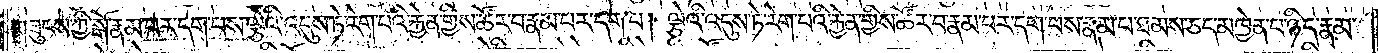གཟུངས་ཀྱི་སྒོ་རྣམ་པར་དག་པས་ལྕེའི་འདུས་ཏེ་རེག་པའི་རྐྱེན་གྱིས་ཚོར་བ་རྣམ་པར་དག་པ། ལྕེའི་འདུས་ཏེ་རེག་པའི་རྐྱེན་གྱིས་ཚོར་བ་རྣམ་པར་དག་པས་རྣམ་པ་ཐམས་ཅད་མཁྱེན་པ་ཉིད་རྣམ་
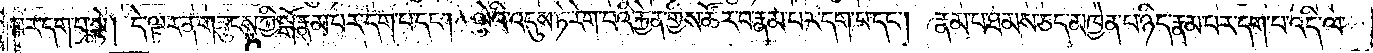པར་དག་པ་སྟེ། དེ་ལྟར་ན་གཟུངས་ཀྱི་སྒོ་རྣམ་པར་དག་པ་དང༌། ལྕེའི་འདུས་ཏེ་རེག་པའི་རྐྱེན་གྱིས་ཚོར་བ་རྣམ་པར་དག་པ་དང༌། རྣམ་པ་ཐམས་ཅད་མཁྱེན་པ་ཉིད་རྣམ་པར་དག་པ་འདི་ལ་
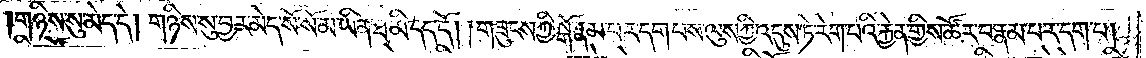གཉིས་སུ་མེད་དེ། གཉིས་སུ་བྱར་མེད་སོ་སོ་མ་ཡིན་ཐ་མི་དད་དོ། །གཟུངས་ཀྱི་སྒོ་རྣམ་པར་དག་པས་ལུས་ཀྱི་འདུས་ཏེ་རེག་པའི་རྐྱེན་གྱིས་ཚོར་བ་རྣམ་པར་དག་པ།
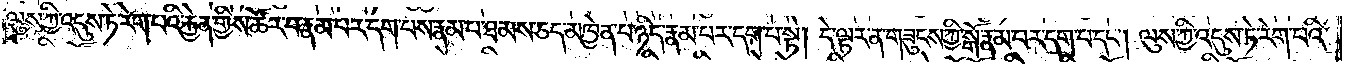ལུས་ཀྱི་འདུས་ཏེ་རེག་པའི་རྐྱེན་གྱིས་ཚོར་བ་རྣམ་པར་དག་པས་རྣམ་པ་ཐམས་ཅད་མཁྱེན་པ་ཉིད་རྣམ་པར་དག་པ་སྟེ། དེ་ལྟར་ན་གཟུངས་ཀྱི་སྒོ་རྣམ་པར་དག་པ་དང༌། ལུས་ཀྱི་འདུས་ཏེ་རེག་པའི་
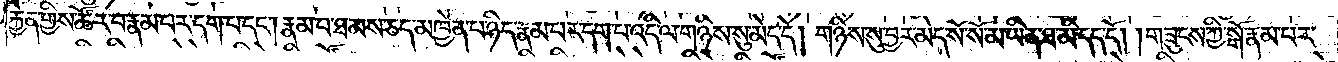རྐྱེན་གྱིས་ཚོར་བ་རྣམ་པར་དག་པ་དང༌། རྣམ་པ་ཐམས་ཅད་མཁྱེན་པ་ཉིད་རྣམ་པར་དག་པ་འདི་ལ་གཉིས་སུ་མེད་དེ། གཉིས་སུ་བྱར་མེད་སོ་སོ་མ་ཡིན་ཐ་མི་དད་དོ། །གཟུངས་ཀྱི་སྒོ་རྣམ་པར་
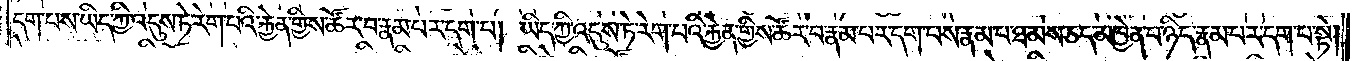དག་པས་ཡིད་ཀྱི་འདུས་ཏེ་རེག་པའི་རྐྱེན་གྱིས་ཚོར་བ་རྣམ་པར་དག་པ། ཡིད་ཀྱི་འདུས་ཏེ་རེག་པའི་རྐྱེན་གྱིས་ཚོར་བ་རྣམ་པར་དག་པས་རྣམ་པ་ཐམས་ཅད་མཁྱེན་པ་ཉིད་རྣམ་པར་དག་པ་སྟེ།
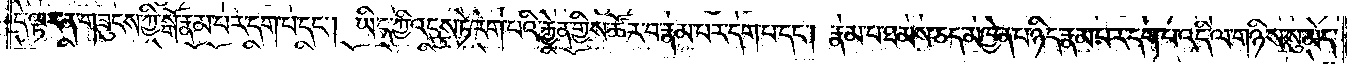དེ་ལྟར་ན་གཟུངས་ཀྱི་སྒོ་རྣམ་པར་དག་པ་དང༌། ཡིད་ཀྱི་འདུས་ཏེ་རེག་པའི་རྐྱེན་གྱིས་ཚོར་བ་རྣམ་པར་དག་པ་དང༌། རྣམ་པ་ཐམས་ཅད་མཁྱེན་པ་ཉིད་རྣམ་པར་དག་པ་འདི་ལ་གཉིས་སུ་མེད་
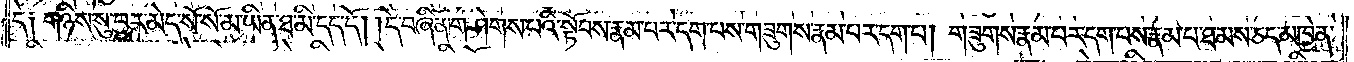དེ༑ གཉིས་སུ་བྱར་མེད་སོ་སོ་མ་ཡིན་ཐ་མི་དད་དོ། །དེ་བཞིན་གཤེགས་པའི་སྟོབས་རྣམ་པར་དག་པས་གཟུགས་རྣམ་པར་དག་པ། གཟུགས་རྣམ་པར་དག་པས་རྣམ་པ་ཐམས་ཅད་མཁྱེན་
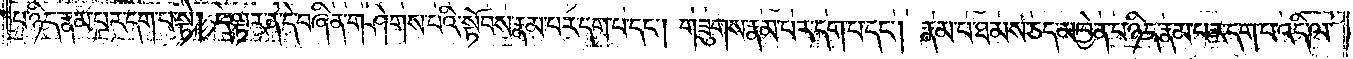པ་ཉིད་རྣམ་པར་དག་པ་སྟེ། དེ་ལྟར་ན་དེ་བཞིན་གཤེགས་པའི་སྟོབས་རྣམ་པར་དག་པ་དང༌། གཟུགས་རྣམ་པར་དག་པ་དང༌། རྣམ་པ་ཐམས་ཅད་མཁྱེན་པ་ཉིད་རྣམ་པར་དག་པ་འདི་ལ་
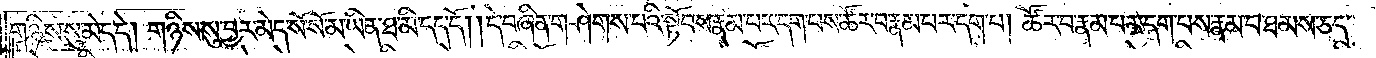གཉིས་སུ་མེད་དེ། གཉིས་སུ་བྱར་མེད་སོ་སོ་མ་ཡིན་ཐ་མི་དད་དོ། །དེ་བཞིན་གཤེགས་པའི་སྟོབས་རྣམ་པར་དག་པས་ཚོར་བ་རྣམ་པར་དག་པ། ཚོར་བ་རྣམ་པར་དག་པས་རྣམ་པ་ཐམས་ཅད་
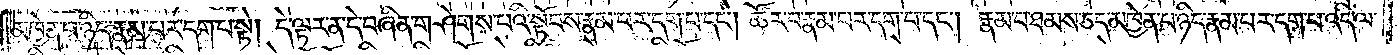མཁྱེན་པ་ཉིད་རྣམ་པར་དག་པ་སྟེ། དེ་ལྟར་ན་དེ་བཞིན་གཤེགས་པའི་སྟོབས་རྣམ་པར་དག་པ་དང༌། ཚོར་བ་རྣམ་པར་དག་པ་དང༌། རྣམ་པ་ཐམས་ཅད་མཁྱེན་པ་ཉིད་རྣམ་པར་དག་པ་འདི་ལ་
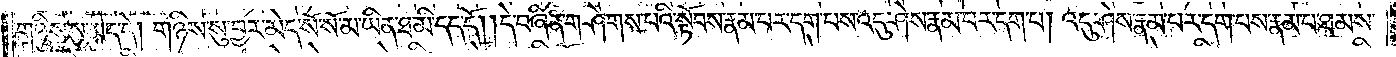གཉིས་སུ་མེད་དེ། གཉིས་སུ་བྱ་མེད་སོ་སོ་མ་ཡིན་ཐ་མི་དད་དོ། །དེ་བཞིན་གཤེགས་པའི་སྟོབས་རྣམ་པར་དག་པས་འདུ་ཤེས་རྣམ་པར་དག་པ། འདུ་ཤེས་རྣམ་པར་དག་པས་རྣམ་པ་ཐམས་
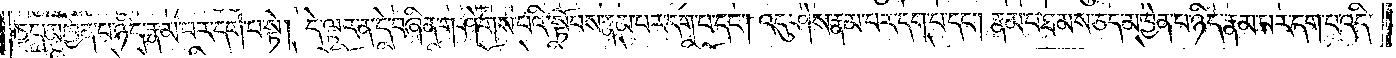ཅད་མཁྱེན་པ་ཉིད་རྣམ་པར་དག་པ་སྟེ། དེ་ལྟར་ན་དེ་བཞིན་གཤེགས་པའི་སྟོབས་རྣམ་པར་དག་པ་དང༌། འདུ་ཤེས་རྣམ་པར་དག་པ་དང༌། རྣམ་པ་ཐམས་ཅད་མཁྱེན་པ་ཉིད་རྣམ་པར་དག་པ་འདི་
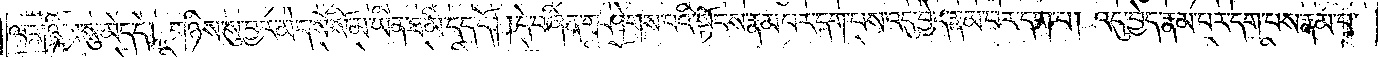ལ་གཉིས་སུ་མེད་དེ། གཉིས་སུ་བྱར་མེད་སོ་སོ་མ་ཡིན་ཐ་མི་དད་དོ། །དེ་བཞིན་གཤེགས་པའི་སྟོབས་རྣམ་པར་དག་པས་འདུ་བྱེད་རྣམ་པར་དག་པ། འདུ་བྱེད་རྣམ་པར་དག་པས་རྣམ་པ་
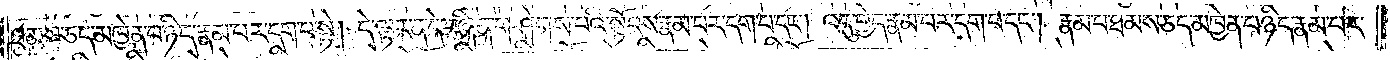ཐམས་ཅད་མཁྱེན་པ་ཉིད་རྣམ་པར་དག་པ་སྟེ། དེ་ལྟར་ན་དེ་བཞིན་གཤེགས་པའི་སྟོབས་རྣམ་པར་དག་པ་དང༌། འདུ་བྱེད་རྣམ་པར་དག་པ་དང༌། རྣམ་པ་ཐམས་ཅད་མཁྱེན་པ་ཉིད་རྣམ་པར་
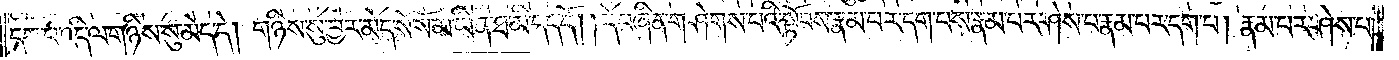དག་པ་འདི་ལ་གཉིས་སུ་མེད་དེ། གཉིས་སུ་བྱར་མེད་སོ་སོ་མ་ཡིན་ཐ་མི་དད་དོ། །དེ་བཞིན་གཤེགས་པའི་སྟོབས་རྣམ་པར་དག་པས་རྣམ་པར་ཤེས་པ་རྣམ་པར་དག་པ། རྣམ་པར་ཤེས་པ་
